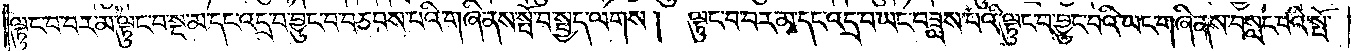ལྟུང་བ་བར་མ་ལྟུང་བ་སྔ་མ་དང་འདྲ་བ་བྱུང་བ་བཅབས་པའི་གཞི་ནས་སྤོ་བ་སྤྱད་ལགས། ལྟུང་བ་བར་མ་དང་འདྲ་བ་ཡང་བཟླས་པའི་ལྟུང་བ་བྱུང་བའི་ཡང་གཞི་ནས་བསླངས་པའི་སྤོ་
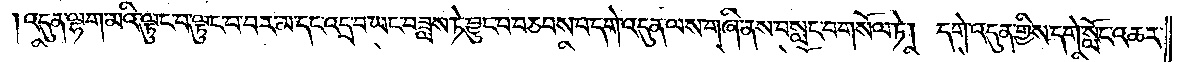འདུན་ལྷག་མའི་ལྟུང་བ་ལྟུང་བ་བར་མ་དང་འདྲ་བ་ཡང་བཟླས་ཏེ་བྱུང་བ་བཅབས་པ་དགེ་འདུན་ལས་གཞི་ནས་བསླང་བ་གསོལ་ཏེ། དགེ་འདུན་གྱིས་དགེ་སློང་འཆར་
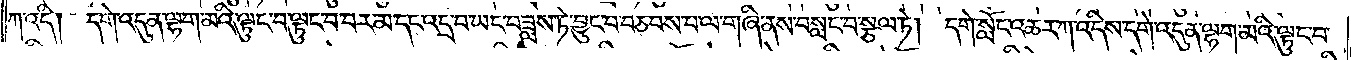ཀ་འདི། དགེ་འདུན་ལྷག་མའི་ལྟུང་བ་ལྟུང་བ་བར་མ་དང་འདྲ་བ་ཡང་བཟླས་ཏེ་བྱུང་བ་བཅབས་པ་ལ་གཞི་ནས་བསླང་བ་སྩལ་ཏེ། དགེ་སློང་འཆར་ཀ་འདིས་དགེ་འདུན་ལྷག་མའི་ལྟུང་བ་
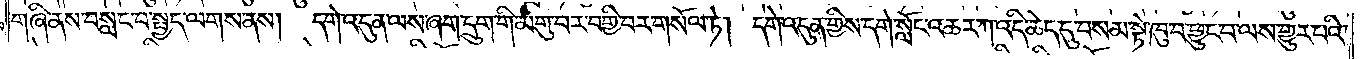གཞི་ནས་བསླང་བ་སྤྱད་ལགས་ནས། དགེ་འདུན་ལས་ཞག་དྲུག་གི་མགུ་བར་བགྱི་བར་གསོལ་ཏེ། དགེ་འདུན་གྱིས་དགེ་སློང་འཆར་ཀ་འདི་ཆེད་དུ་བསམ་སྟེ་ཁུ་བ་ཕྱུང་བ་ལས་གྱུར་པའི་
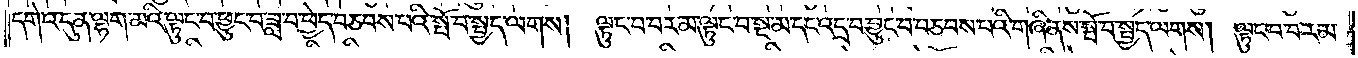དགེ་འདུན་ལྷག་མའི་ལྟུང་བ་ཕྱུང་བ་ཟླ་བ་ཕྱེད་བཅབས་པའི་སྤོ་བ་སྤྱད་ལགས། ལྟུང་བ་བར་མ་ལྟུང་བ་སྔ་མ་དང་འདྲ་བ་བྱུང་བ་བཅབས་པའི་གཞི་ནས་སྤོ་བ་སྤྱད་ལགས། ལྟུང་བ་བར་མ་
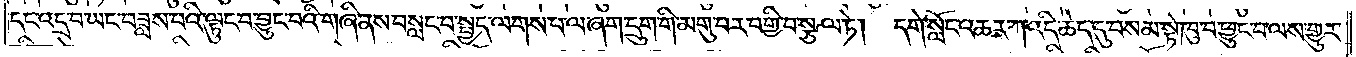དང་འདྲ་བ་ཡང་བཟླས་པའི་ལྟུང་བ་བྱུང་བའི་གཞི་ནས་བསླང་བ་སྤྱད་ལགས་པ་ལ་ཞག་དྲུག་གི་མགུ་བར་བགྱི་བ་སྩལ་ཏེ། དགེ་སློང་འཆར་ཀ་འདི་ཆེད་དུ་བསམ་སྟེ་ཁུ་བ་ཕྱུང་བ་ལས་གྱུར་
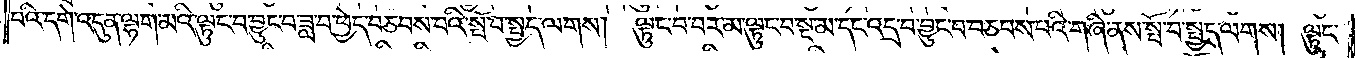པའི་དགེ་འདུན་ལྷག་མའི་ལྟུང་བ་བྱུང་བ་ཟླ་བ་ཕྱེད་བཅབས་པའི་སྤོ་བ་སྤྱད་ལགས། ལྟུང་བ་བར་མ་ལྟུང་བ་སྔ་མ་དང་འདྲ་བ་བྱུང་བ་བཅབས་པའི་གཞི་ནས་སྤོ་བ་སྤྱད་ལགས། ལྟུང་
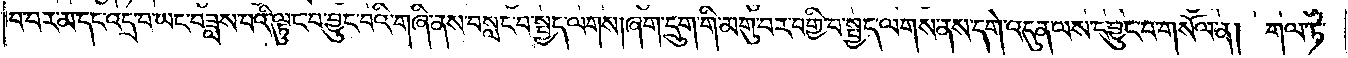བ་བར་མ་དང་འདྲ་བ་ཡང་བཟླས་པའི་ལྟུང་བ་བྱུང་བའི་གཞི་ནས་བསླང་བ་སྤྱད་ལགས། ཞག་དྲུག་གི་མགུ་བར་བགྱི་བ་སྤྱད་ལགས་ནས་དགེ་འདུན་ལས་དབྱུང་བ་གསོལ་ན། གལ་ཏེ་
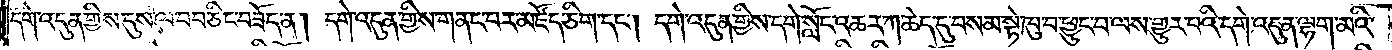དགེ་འདུན་གྱིས་དུས་ལ་བབ་ཅིང་བཟོད་ན། དགེ་འདུན་གྱིས་གནང་བར་མཛོད་ཅིག་དང༌། དགེ་འདུན་གྱིས་དགེ་སློང་འཆར་ཀ་ཆེད་དུ་བསམ་སྟེ་ཁུ་བ་ཕྱུང་བ་ལས་གྱུར་བའི་དགེ་འདུན་ལྷག་མའི་
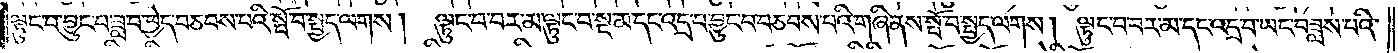ལྟུང་བ་བྱུང་བ་ཟླ་བ་ཕྱེད་བཅབས་པའི་སྤོ་བ་སྤྱད་ལགས། ལྟུང་བ་བར་མ་ལྟུང་བ་སྔ་མ་དང་འདྲ་བ་བྱུང་བ་བཅབས་པའི་གཞི་ནས་སྤོ་བ་སྤྱད་ལགས། ལྟུང་བ་བར་མ་དང་འདྲ་བ་ཡང་བཟླས་པའི་
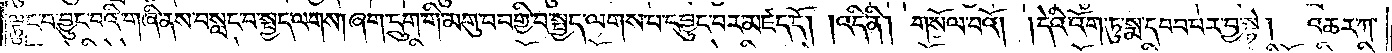ལྟུང་བ་བྱུང་བའི་གཞི་ནས་བསླང་བ་སྤྱད་ལགས། ཞག་དྲུག་གི་མགུ་བ་བགྱི་བ་སྤྱད་ལགས་པ་དབྱུང་བར་མཛད་དོ། །འདི་ནི། གསོལ་བའོ། །དེའི་འོག་ཏུ་སྨ་དབབ་པར་བྱ་སྟེ། འཆར་ཀ་
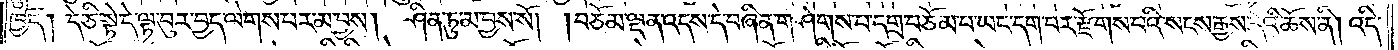ཁྱོད། དེ་ཅི་སྟེ་དེ་ལྟ་བུར་བྱད་ལེགས་པར་མ་བྱས། ཤིན་ཏུ་མ་བྱས་སོ། །བཅོམ་ལྡན་འདས་དེ་བཞིན་གཤེགས་པ་དགྲ་བཅོམ་པ་ཡང་དག་པར་རྫོགས་པའི་སངས་རྒྱས་དེའི་ཆོས་ནི། འདི་
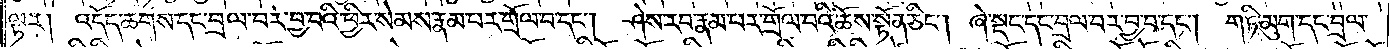ལྟར། འདོད་ཆགས་དང་བྲལ་བར་བྱ་བའི་ཕྱིར་སེམས་རྣམ་པར་གྲོལ་བ་དང༌། ཤེས་རབ་རྣམ་པར་གྲོལ་བའི་ཆོས་སྟོན་ཅིང༌། ཞེ་སྡང་དང་བྲལ་བར་བྱ་བ་དང༌། གཏི་མུག་དང་བྲལ་
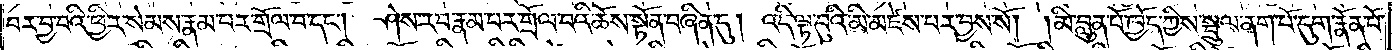བར་བྱ་བའི་ཕྱིར་སེམས་རྣམ་པར་གྲོལ་བ་དང༌། ཤེས་རབ་རྣམ་པར་གྲོལ་བའི་ཆོས་སྟོན་བཞིན་དུ། འདི་ལྟ་བུའི་མི་མཛེས་པར་བྱས་སོ། །མི་བླུན་པོ་ཁྱོད་ཀྱིས་སྦྲུལ་ནག་པོ་དུག་རྣོན་པོ་
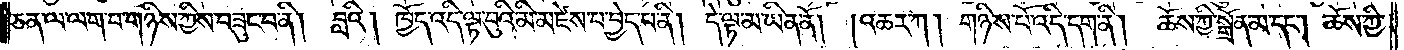ཅན་ལ་ལག་པ་གཉིས་ཀྱིས་བཟུང་བ་ནི། བླའི། ཁྱོད་འདི་ལྟ་བུའི་མི་མཛེས་པ་བྱེད་པ་ནི། དེ་ལྟ་མ་ཡིན་ནོ། འཆར་ཀ། གཉིས་པོ་འདི་དག་ནི། ཆོས་ཀྱི་སྒྲོན་མ་དང༌། ཆོས་ཀྱི་
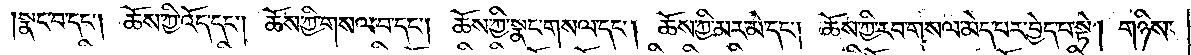།སྣང་བ་དང༌། ཆོས་ཀྱི་འོད་དང༌། ཆོས་ཀྱི་གསལ་བ་དང༌། ཆོས་ཀྱི་སྣང་གསལ་དང༌། ཆོས་ཀྱི་མར་མེ་དང༌། ཆོས་ཀྱི་རབ་གསལ་མེད་པར་བྱེད་པ་སྟེ། གཉིས་
